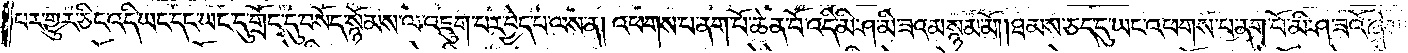པར་གྱུར་ཅིང་འདི་ཡང་དང་ཡང་དུ་གྲོང་དུ་བསོད་སྙོམས་ལ་འཇུག་པར་བྱེད་པ་ལས་ན། འཕགས་པ་ནག་པོ་ཆེན་པོ་འདི་མི་ཤ་མི་ཟའམ་སྙམ་མོ། །ཐམས་ཅད་དུ་ཡང་འཕགས་པ་ནག་པོ་མི་ཤ་ཟའོ་ཞེས་
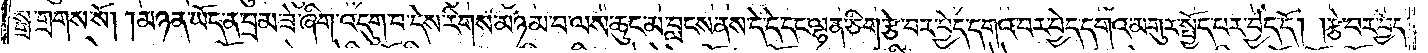སྒྲ་གྲགས་སོ། །མཉན་ཡོད་ན་བྲམ་ཟེ་ཞིག་འདུག་པ་དེས་རིགས་མཉམ་པ་ལས་ཆུང་མ་བླངས་ནས་དེ་དེ་དང་ལྷན་ཅིག་རྩེ་བར་བྱེད་དགའ་བར་བྱེད་དགའ་མགུར་སྤྱོད་པར་བྱེད་དོ། །རྩེ་བར་བྱེད་
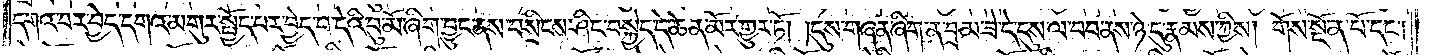དགའ་བར་བྱེད་དགའ་མགུར་སྤྱོད་པར་བྱེད་པ་དེའི་བུ་མོ་ཞིག་བྱུང་ནས་བསྲིངས་ཤིང་བསྐྱེད་དེ་ཆེན་མོར་གྱུར་ཏོ། །དུས་གཞན་ཞིག་ན་བྲམ་ཟེ་དེ་དུས་ལ་བབ་ནས་ཉེ་དུ་རྣམས་ཀྱིས། གོས་སྔོན་པོ་དང༌།
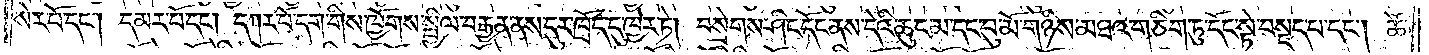སེར་པོ་དང༌། དམར་པོ་དང༌། དཀར་པོ་དག་གིས་ཁྱོགས་སྤྱིལ་བརྒྱན་ནས་དུར་ཁྲོད་དུ་ཁྱེར་ཏེ། བསྲེགས་ཤིང་དོང་ནས་དེའི་ཆུང་མ་དང་བུ་མོ་གཉིས་མཐའ་གཅིག་ཏུ་དོང་སྟེ་བསྡད་པ་དང༌། ཚེ་
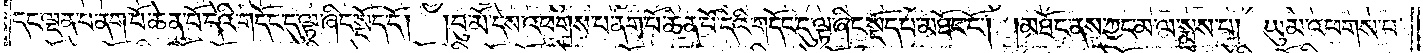དང་ལྡན་པ་ནག་པོ་ཆེན་པོ་དེའི་གདོང་དུ་ལྟ་ཞིང་སྡོད་དོ། །བུ་མོ་དེས་འཕགས་པ་ནག་པོ་ཆེན་པོ་དེའི་གདོང་དུ་ལྟ་ཞིང་སྡོད་པ་མཐོང་ངོ༌། །མཐོང་ནས་ཀྱང་མ་ལ་སྨྲས་པ། ཡུམ་འཕགས་པ་
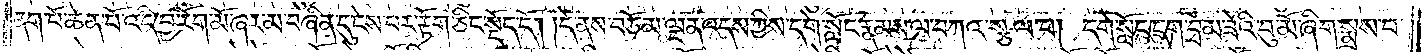ནག་པོ་ཆེན་པོ་འདི་བྱ་རོག་མོ་ཞར་མ་བཞིན་དུ་ངེས་པར་རྟོག་ཅིང་སྡོད་དོ། །དེ་ནས་བཅོམ་ལྡན་འདས་ཀྱིས་དགེ་སློང་རྣམས་ལ་བཀའ་སྩལ་པ། དགེ་སློང་དག་བྲམ་ཟེའི་བུ་མོ་ཞིག་སྨྲས་པ་
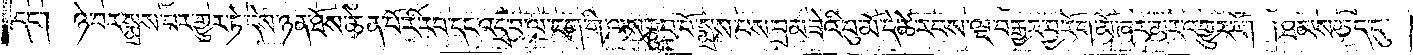དང༌། ཉེ་བར་སྨྲས་པར་གྱུར་ཏེ་དེས་ཉན་ཐོས་ཆེན་པོ་རི་རབ་དང་འདྲ་བ་ལ་ངག་གི་ལས་རྩུབ་པོ་སྨྲས་པས་བྲམ་ཟེའི་བུ་མོ་དེ་ཚེ་རབས་ལྔ་བརྒྱར་བྱ་རོག་མོ་ཞར་མར་འགྱུར་རོ། །ཐམས་ཅད་དུ་
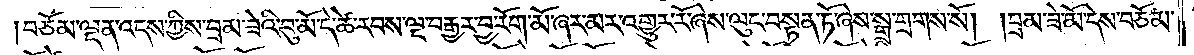བཅོམ་ལྡན་འདས་ཀྱིས་བྲམ་ཟེའི་བུ་མོ་དེ་ཚེ་རབས་ལྔ་བརྒྱར་བྱ་རོག་མོ་ཞར་མར་འགྱུར་རོ་ཞེས་ལུང་བསྟན་ཏོ་ཞེས་སྒྲ་གྲགས་སོ། །བྲམ་ཟེ་མོ་དེས་བཅོམ་
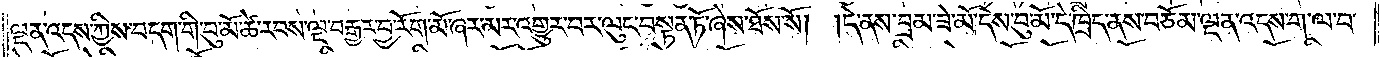ལྡན་འདས་ཀྱིས་བདག་གི་བུ་མོ་ཚེ་རབས་ལྔ་བརྒྱར་བྱ་རོག་མོ་ཞར་མར་འགྱུར་བར་ལུང་བསྟན་ཏོ་ཞེས་ཐོས་སོ། །དེ་ནས་བྲམ་ཟེ་མོ་དེས་བུ་མོ་དེ་ཁྲིད་ནས་བཅོམ་ལྡན་འདས་ག་ལ་བ་
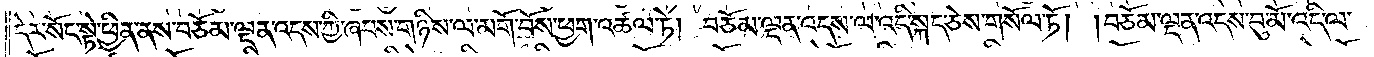དེར་སོང་སྟེ་ཕྱིན་ནས་བཅོམ་ལྡན་འདས་ཀྱི་ཞབས་གཉིས་ལ་མགོ་བོས་ཕྱག་འཚལ་ཏེ། བཅོམ་ལྡན་འདས་ལ་འདི་སྐད་ཅེས་གསོལ་ཏོ། །བཅོམ་ལྡན་འདས་བུ་མོ་འདི་ལ་
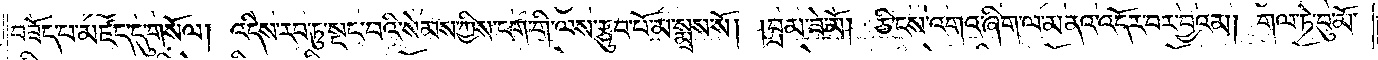བཟོད་པ་མཛད་དུ་གསོལ། འདིས་རབ་ཏུ་སྡང་པའི་སེམས་ཀྱིས་ངག་གི་ལས་རྩུབ་པོ་མ་སྨྲས་སོ། །བྲམ་ཟེ་མོ། ཅི་ངས་འགའ་ཞིག་ལ་མནའ་འདོར་བར་བྱའམ། གལ་ཏེ་བུ་མོ་
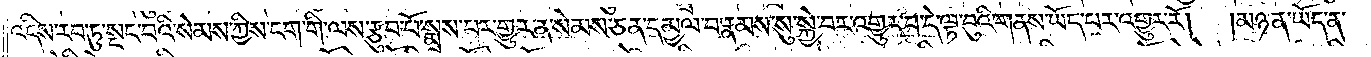འདིས་རབ་ཏུ་སྡང་པའི་སེམས་ཀྱིས་ངག་གི་ལས་རྩུབ་པོ་སྨྲས་པར་གྱུར་ན་སེམས་ཅན་དམྱལ་བ་རྣམས་སུ་སྐྱེ་བར་འགྱུར་བ་དེ་ལྟ་བུའི་གནས་ཡོད་པར་འགྱུར་རོ། །མཉན་ཡོད་ན་
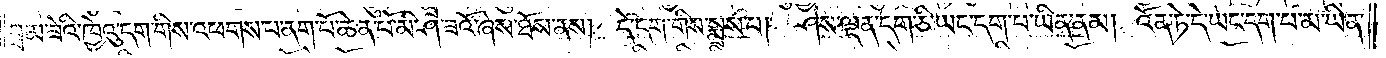བྲམ་ཟེའི་ཁྱེའུ་དག་གིས་འཕགས་པ་ནག་པོ་ཆེན་པོ་མི་ཤ་ཟའོ་ཞེས་ཐོས་ནས། དེ་དག་གིས་སྨྲས་པ། ཤེས་ལྡན་དག་ཅི་ཡང་དག་པ་ཡིན་ནམ། འོན་ཏེ་དེ་ཡང་དག་པ་མ་ཡིན་
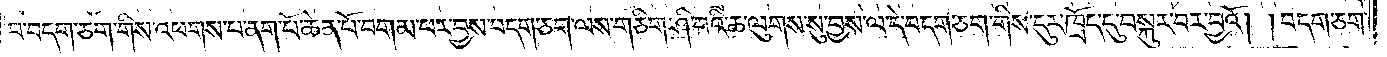བ་བདག་ཅག་གིས་འཕགས་པ་ནག་པོ་ཆེན་པོ་བགམ་པར་བྱས་བདག་ཅག་ལས་གཅིག་ཤི་བའི་ཆ་ལུགས་སུ་བྱས་ལ་དེ་བདག་ཅག་གིས་དུར་ཁྲོད་དུ་བསྐུར་བར་བྱའོ། །བདག་ཅག་
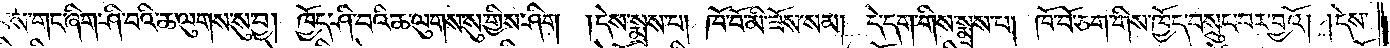ལས་གང་ཞིག་ཤི་བའི་ཆ་ལུགས་སུ་བྱ། ཁྱོད་ཤི་བའི་ཆ་ལུགས་སུ་གྱིས་ཤིག །དེས་སྨྲས་པ། ཁོ་བོ་མི་ཟོས་སམ། དེ་དག་གིས་སྨྲས་པ། ཁོ་བོ་ཅག་གིས་ཁྱོད་བསྲུང་བར་བྱའོ། །དེས་
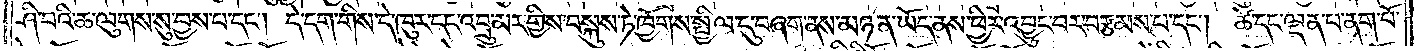ཤི་བའི་ཆ་ལུགས་སུ་བྱས་པ་དང༌། དེ་དག་གིས་དེ་ཁུར་དང་འབྲུ་མར་གྱིས་བསྐུས་ཏེ་ཁྱོགས་སྤྱིལ་དུ་བཞག་ནས་མཉན་ཡོད་ནས་ཕྱིར་འབྱུང་བར་བརྩམས་པ་དང༌། ཚེ་དང་ལྡན་པ་ནག་པོ་
